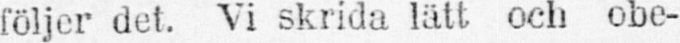följer det. Vi skrida lätt och obe-
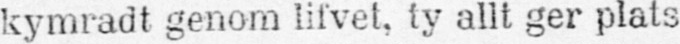kymradt genom lifvet, ty allt ger plats
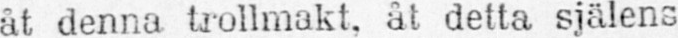åt denna trollmakt, åt detta själens
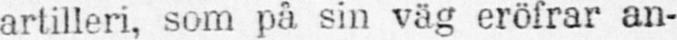artilleri, som på sin väg eröfrar an-
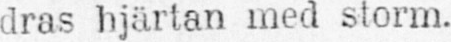dras hjärtan med storm.
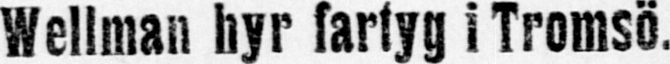Wellman hyr fartyg i Tromsö.
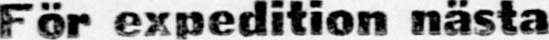För expedition nästa
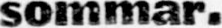sommar.
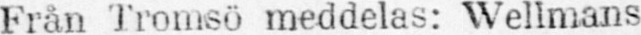Från Tromsö meddelas: Wellmans
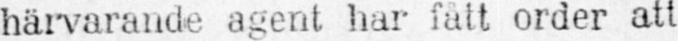härvarande agent har fått order att
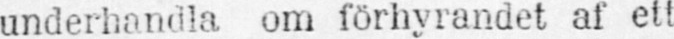underhandla om förhyrandet af ett
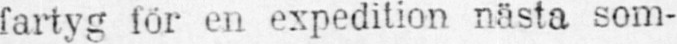fartyg för en expedition nästa som-
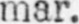mar.
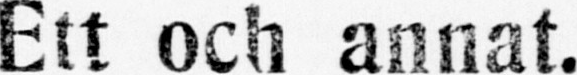Ett och annat.
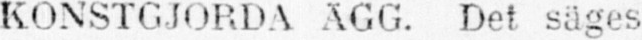KONSTGJORDA ÄGG. Det säges
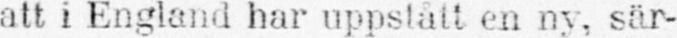att i England har uppstått en ny, sär-
